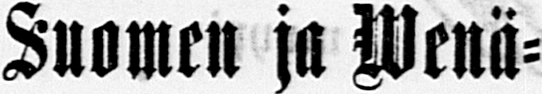Suomen ja Wenä-
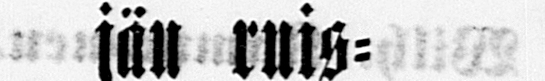jän ruis-
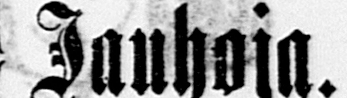Jauhoja.
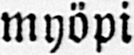myöpi
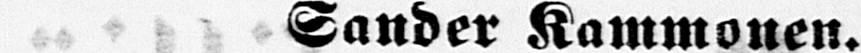Sander Kammonen.
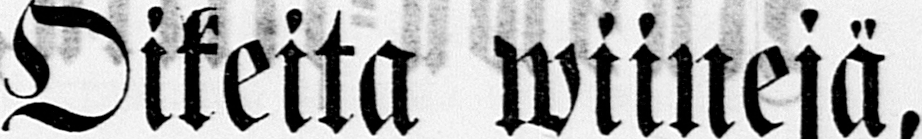Oikeita wiinejä
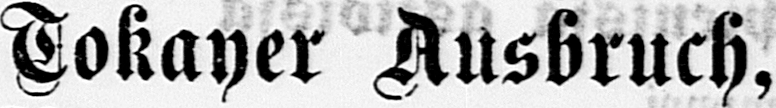Tokayer Ausbruch,
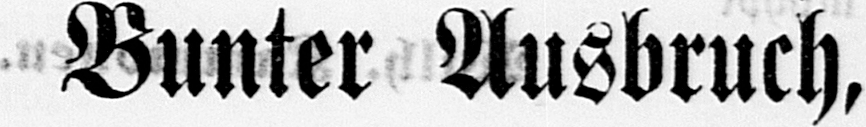Bunter Ausbruch,
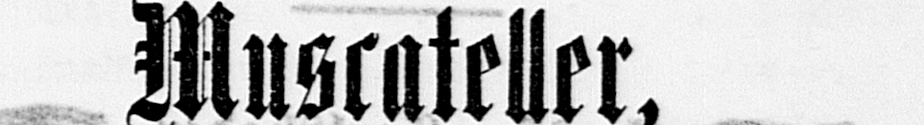Muscateller,
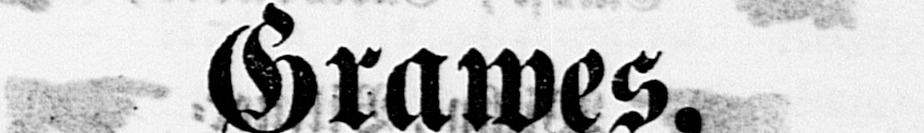Grawes,
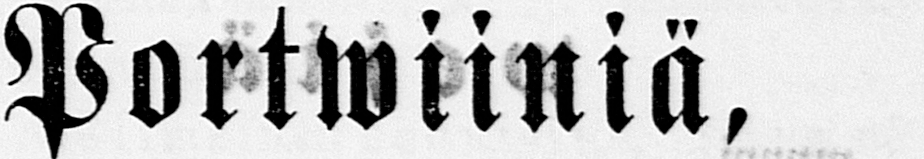Portwiiniä,
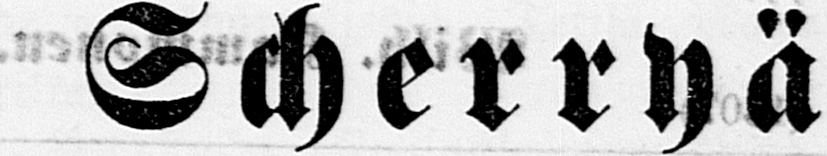Scherryä
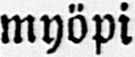myöpi
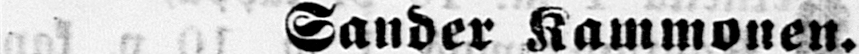Sander Kammonen.
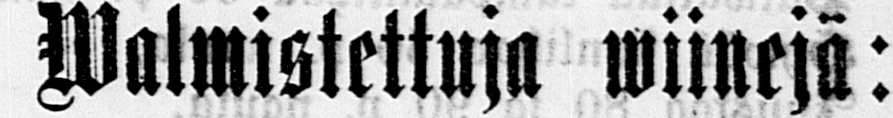Walmistettuja wiinejä:
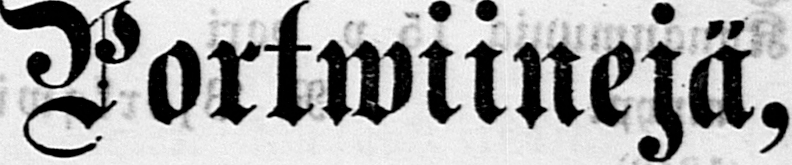Portwiinej ä ,
